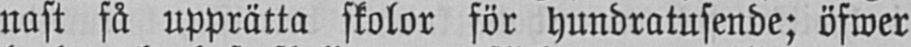nast få upprätta skolor för hundratusende; öfwer
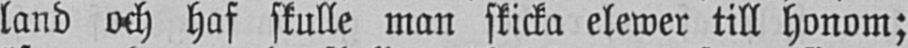land och haf skulle man skicka elewer till honom;
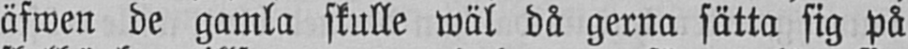äfwen de gamla skulle wäl då gerna sätta sig på
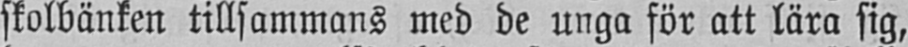skolbänken tillsammans med de unga för att lära sig,
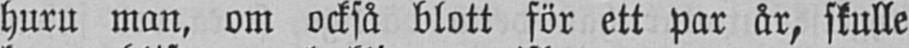huru man, om också blott för ett par år, skulle
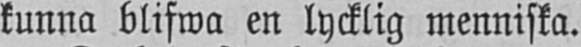kunna blifwa en lycklig menniska.
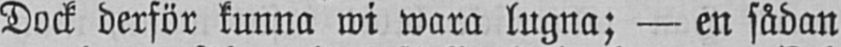Dock derför kunna wi wara lugna; — en sådan
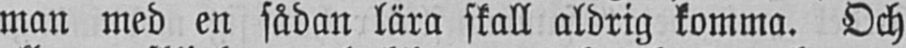man med en sådan lära skall aldrig komma. Och
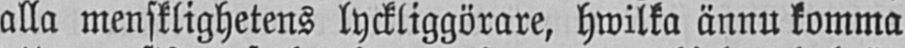alla mensklighetens lyckliggörare, hwilka ännu komma
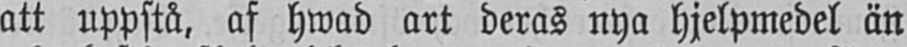att uppstå, af hwad art deras nya hjelpmedel än
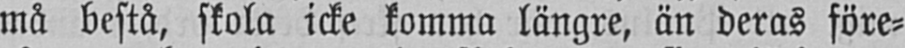må bestå, skola icke komma längre, än deras före-
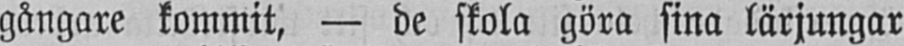gångare kommit, — de skola göra sina lärjungar
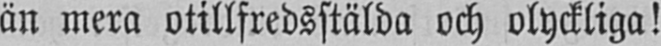än mera otillfredsstälda och olyckliga!
